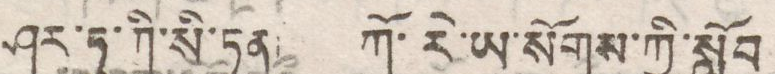ཤར་ཏུ་ཀི་སི་ཏན། ཀོ་རེ་ཡ་སོགས་ཀྱི་སློབ
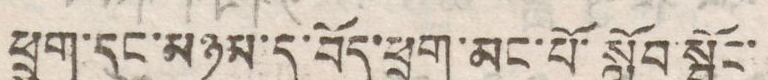ཕྲུག་དང་མཉམ་དུ་བོད་ཕྲུག་མང་པོ་སློབ་སྦྱོང་
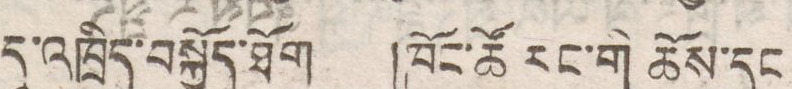དུ་འཁྲིད་བསྐྱོད་ཐོག །ཁོང་ཚོ རང་གི ཆོས་དང
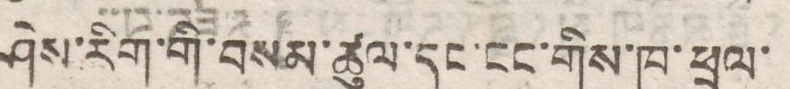ཤེས་རིག་གི་བསམ་ཚུལ་དང་ངང་གིས་ཁ་ཕྲལ་
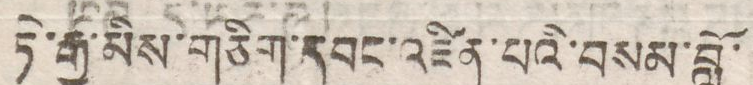ཏེ་རྒྱ་མིས་གཅིག་དབང་འཛིན་པའི་བསམ་བློ་
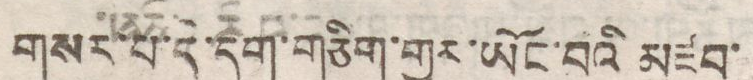གསར་པ་དེ་དག་གཅིག་གྱུར་ཡོང་བའི བཛུབ་
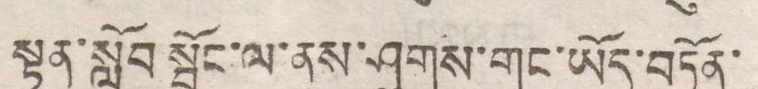སྟན་སློབ་སྦྱོང་ལ་ནུས་ཤུགས་གང་ཡོད་བཏོན་
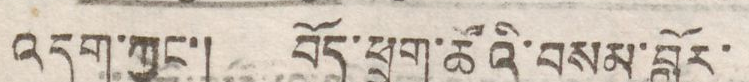འདུག་ཀྱང་། བོད་ཕྲུག་ཚོའི་བསལ་བློར་
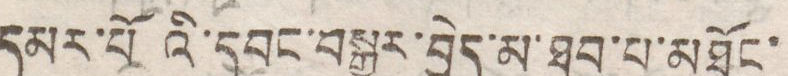དམར་པོའི་དབང་བསྒྱུར་བྱེད་མ་ཐུབ་པ་མཐོང་
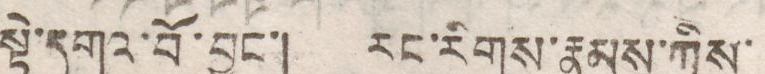སྟེ་དགའ་བོ་བྱུང་། རང་རིགས་རྣམས་ཀྱིས་
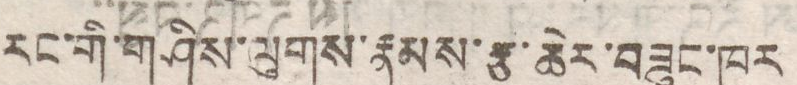རང་གི་གཤིས་ལུགས་རྣམས་རྩ་ཆེར་བཟུང་ཁར
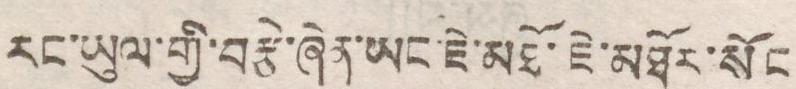རང་ཡུལ་གྱི་བརྩེ་ཞེན་ཡང་ཇེ་མཐོ་ཇེ་མཐོར་སོང་
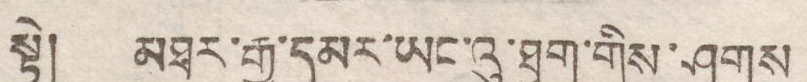སྟེ། མཐར་རྒྱ་དམར་ཡང་འུ་ཐུག་གིས་ཤུགས
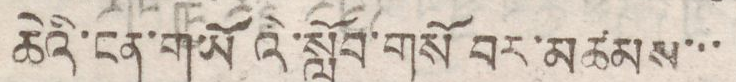ཆེའི་ངན་གཡོའི་སློབ་གསོ བར་མཚམས་་་
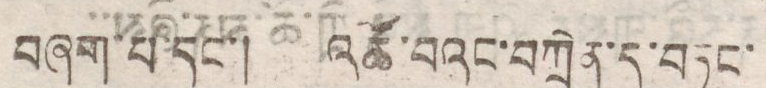བཞག་པ་དང་། འཚོ་བའང་བཀྲེན་དུ་བཏང་
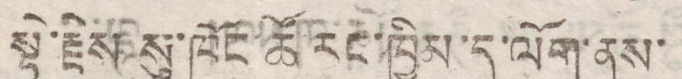སྟེ་རྗེས་སུ་ཁོང་ཚོ་རང་ཁྱིམ་དུ་ལོག་ནས་
